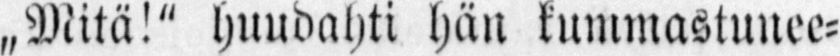„Mitä!" huudahti hän kummastunee-
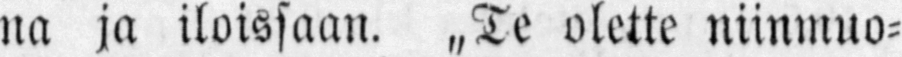na ja iloissaan. „Te olette niinmuo-
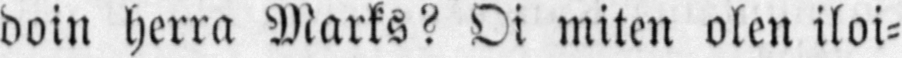doin herra Marks? Oi miten olen iloi-
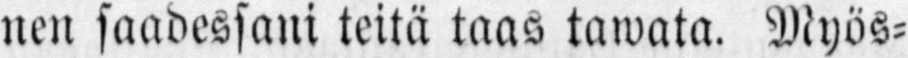nen saadessani teitä taas tawata. Myös-
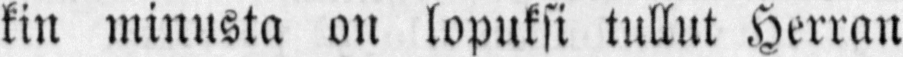kin minusta on lopuksi tullut Herran
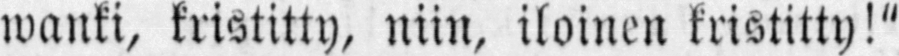wanki, kristitty, niin, iloinen kristitty!"
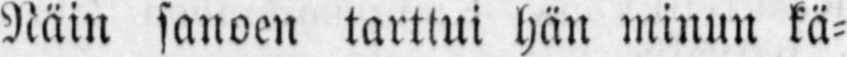Näin sanoen tarttui hän minun kä-
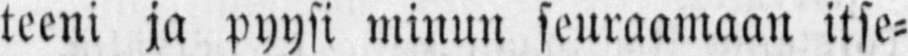teeni ja pyysi minun seuraamaan itse-
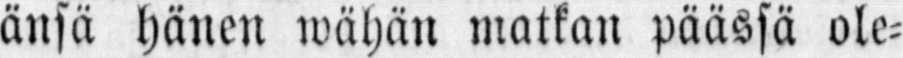änsä hänen wähän matkan päässä ole-
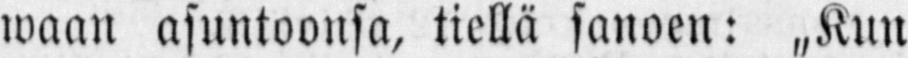waan asuntoonsa, tiellä sanoen: „Kun
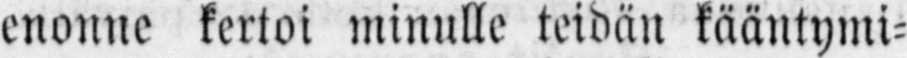enonne kertoi minulle teidän kääntymi-
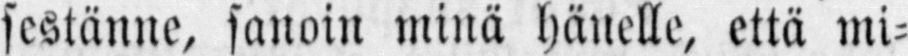sestänne, sanoin minä hänelle, että mi-
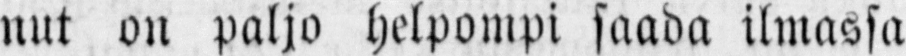nut on paljo helpompi saada ilmassa
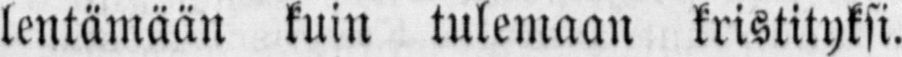lentämään kuin tulemaan kristityksi.
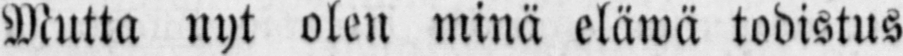Mutta nyt olen minä eläwä todistus
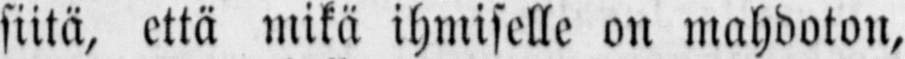siitä, että mikä ihmiselle on mahdoton,
